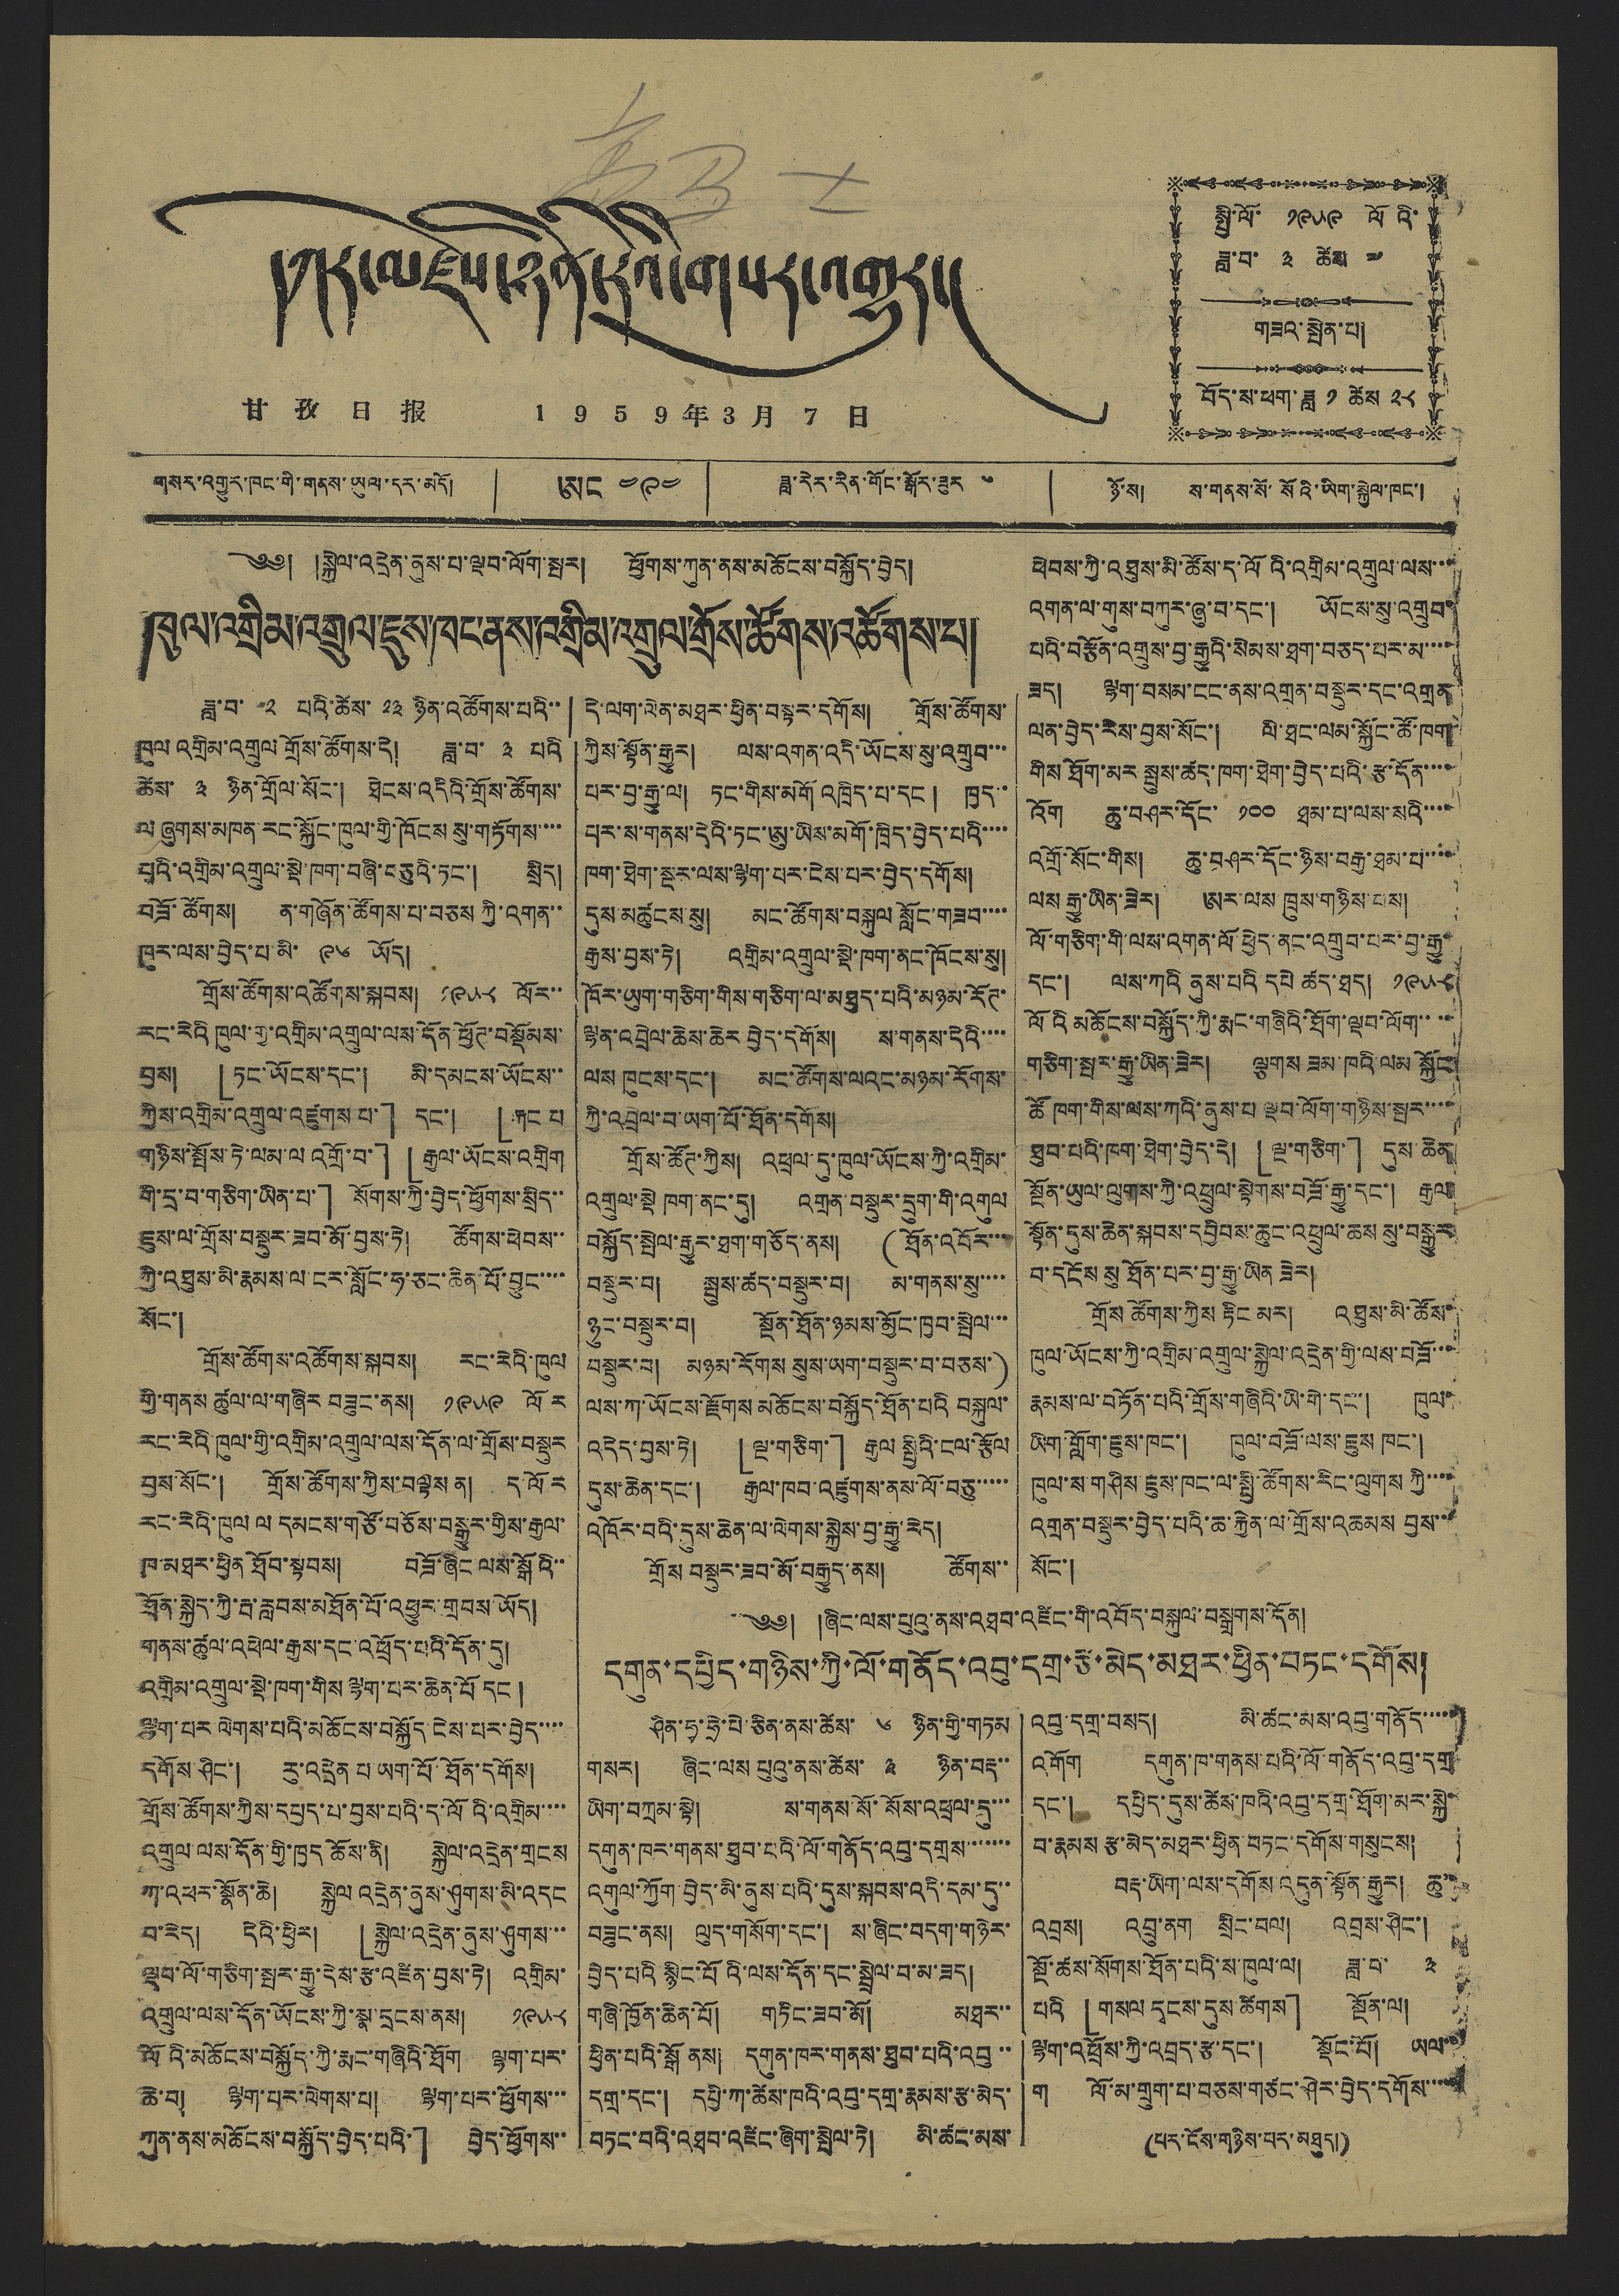དཀར་མཛེས་ཉིན་རེའི་གསར་འགྱུར།
甘 孜 日 报 1 9 5 9 年 3 月 7 日
སྤྱི་ལོ་ ༡༩༥༩ ལོའི་
ཟླ་བ་ ༣ ཚེས ༧
གཟའ་སྤེན་པ།
བོད་ས་ཕག་ཟླ ༡ ཚེས ༢༨
༄༅། །སྐྱེལ་འདྲེན་ནུས་པ་ལྡབ་ལོག་སྤར། ཕྱོགས་ཀུན་ནས་མཆོངས་བསྐྱོད་བྱེད།
ཁུལ་འགྲིམ་འགྲུལ་ཇུས་ཁང་ནས་འགྲིམ་འགྲུལ་གྲོས་ཚོགས་འཚོགས་པ།
ཟླ་བ་ ༢ པའི་ཚེས་ ༢༣ ཉིན་འཚོགས་པའི་་
ཁུལ་འགྲིམ་འགྲུལ་གྲོས་ཚོགས་དེ། ཟླ་བ་ ༣ པའི
ཚེས་ ༣ ཉིན་གྲོལ་སོང་། ཐེངས་འདིའི་གྲོས་ཚོགས་
ལ ཞུགས་མཁན་རང་སྐྱོང་ཁུལ་གྱི་ཁོངས་སུ་གཏོགས་་་་
པའི་འགྲིམ་འགྲུལ་སྡེ་ཁག་བཞི་བཅུའི་ཏང་། སྲིད།
བཟོ་ཚོགས། ན་གཞོན་ཚོགས་པ་བཅས་ཀྱི་འགན་་
ཁུར་ལས་བྱེད་པ་མི་ ༩༦ ཡོད།
གྲོས་ཚོགས་འཚོགས་སྐབས། ༡༩༥༨ ལོར་་
རང་རེའི ཁུལ་གྱ་འགྲིམ་འགྲུལ་ལས་དོན་ཕྱོཊ་བསྡོམས་
བྱས། 「ཏང་ཡོངས་དང་། མི་དམངས་ཡོངས་་
ཀྱིས་འགྲིམ་འགྲུལ་འཛུགས་པ་」དང་། 「རྐང་པ
གཉིས་སྤོས་ཏེ་ལམ་ལ་འགྲོ་བ་」「རྒྱལ་ཡོངས་འགྲིག
གི་དྲ་བ་གཅིག་ཡིན་པ་」སོགས་ཀྱི་བྱེད་ཕྱོགས་སྲིད་་
ཇུས་ལ་གྲོས་བསྡུར་ཟབ་མོ་བྱས་ཏེ། ཚོགས་ཕེབས་་
ཀྱི་འཐུས་མི་རྣམས་ལ་ངར་སློང་ཧ་ཅང་ཆེན་པོ་བྱུང་་་་
སོང་།
གྲོས་ཚོགས་འཚོགས་སྐབས། རང་རེའི་ཁུལ
གྱི་གནས ཚུལ་ལ་གཞིར བཟུང་ནས། ༡༩༥༩ ལོར
རང་རེའི་ཁུལ་གྱི་འགྲིམ་འགྲུལ་ལས་དོན་ལ་གྲོས་བསྡུར
བྱས་སོང་། གྲོས་ཚོགས་ཀྱིས་བལྟས ན། ད་ལོར
རང་རེའི་ཁུལ ལ དམངས་གཙོ་བཅོས་བསྒྱུར་གྱིས་རྒྱལ་
ཁ་མཐར་ཕྱིན ཐོབ་སྟབས། བཟོ་ཞིང ལས་སྒོའི་་
ཐོན་སྐྱེད་ཀྱི་རྦ་རླབས་མཐོན་པོ་འཕྱུར་གྲབས་ཡོད།
གནས་ཚུལ་འཕེལ་རྒྱས་དང་འཕྲོད་པའི་དོན་དུ།
འགྲིམ་འགྲུལ་སྡེ་ཁག་གིས་ལྷག་པར་ཆེན་པོ་དང་།
ལྷག་པར་ལེགས་པའི་མཆོངས་བསྐྱོད་ངེས་པར་བྱེད་་་་
དགོས་ཤིང་། རུ་འདྲེན པ ཡག་པོ་ཐོན་དགོས།
གྲོས་ཚོགས་ཀྱིས་དཔྱད་པ་བྱས་པའི་ད་ལོའི་འགྲིམ་་་་
འགྲུལ་ལས་དོན་གྱི་ཁྱད་ཆོས་ནི། སྐྱེལ་འདྲེན་གྲངས
ཀ་འཕར་སྣོན་ཆེ། སྐྱེལ་འདྲེན་ནུས་ཤུགས་མི་འདང
བ་རེད། དེའི་ཕྱིར། 「སྐྱེལ་འདྲེན་ནུས་ཤུགས་་་
ལྡབ་ལོ་གཅིག་སྤར་རྒྱུ་དེས་རྩ་འཛིན་བྱས་ཏེ། འགྲིམ་
འགྲུལ་ལས་དོན་ཡོངས་ཀྱི་སྣ་དྲངས་ནས། ༡༩༥༨
ལོའི་མཆོངས་བསྐྱོད་ཀྱི་རྨང་གཞིའི་ཐོག ལྷག་པར་
ཆེ་བ། ལྷག་པར་ལེགས་པ། ལྷག་པར་ཕྱོགས་་་
ཀུན་ནས་མཆོངས་བསྐྱོད་བྱེད་པའི་」 བྱེད་ཕྱོགས་་
དེ་ལག་ལེན་མཐར་ཕྱིན་བསྟར་དགོས། གྲོས་ཚོགས་
ཀྱིས་སྟོན་རྒྱུར། ལས་འགན་འདི་ཡོངས་སུ་འགྲུབ་་་
པར་བྱ་རྒྱུ་ལ། ཏང་གིས་མགོ་འཁྲིད་པ་དང་། ཁྱད་་
པར་ས་གནས་དེའི་ཏང་ཨུ་ཡིས་མགོ་ཁྲིད་བྱེད་པའི་་་་
ཁག་ཐེག་སྔར་ལས་ལྷག་པར་ངེས་པར་བྱེད་དགོས།
དུས་མཚུངས་སུ། མང་ཚོགས་བསྐུལ་སློང་གཟབ་་་་
རྒྱས་བྱས་ཏེ། འགྲིམ་འགྲུལ་སྡེ་ཁག་ནང་ཁོངས་སུ།
ཁོར་ཡུག་གཅིག་གིས་གཅིག་ལ་མཐུད་པའི་མཉམ་རོཊ་
ལྷན་འབྲེལ་ཆེས་ཆེར་བྱེད་དགོས། ས་གནས་དེའི་་་་
ལས་ཁུངས་དང་། མང་ཚོགས་ལའང་མཉམ་རོགས་
ཀྱི་འབྲེལ་བ་ཡག་པོ་ཐོན་དགོས།
གྲོས་ཚོཊ་ཀྱིས། འཕྲལ་དུ་ཁུལ་ཡོངས་ཀྱི་འགྲིམ་
འགྲུལ་སྡེ་ཁག་ནང་དུ། འགྲན་བསྡུར་དྲུག་གི་འགུལ
བསྐྱོད་སྤེལ་རྒྱུར་ཐག་གཅོད་ནས། (ཐོན་འབོར་་་
བསྡུར་བ། སྤུས་ཚད་བསྡུར་བ། མ་གནས་སུ་་་་
ཉུང་བསྡུར་བ། སྔོན་ཐོན་ཉམས་མྱོང་ཁྱབ་སྤེལ་་་
བསྡུར་བ། མཉམ་རོགས སུས་ཡག་བསྡུར་བ་བཅས་)
ལས་ཀ་ཡོངས་རྫོགས མཆོངས་བསྐྱོད་ཐོན་པའི བསྐུལ་
འདེད་བྱས་ཏེ། 「ལྔ་གཅིག་」རྒྱལ་སྤྱིའི་ངལ་རྩོལ
དུས་ཆེན་དང་། རྒྱལ་ཁབ་འཛུགས་ནས་ལོ་བཅུ་་་་་
འཁོར་བའི་དུས་ཆེན་ལ་ལེགས་སྐྱེས་བྱ་རྒྱུ་རེད།
གྲོས་བསྡུར་ཟབ་མོ་བརྒྱུད་ནས། ཚོགས་་
ཕེབས་ཀྱི་འཐུས་མི་ཚོས་ད་ལོའི་འགྲིམ་འགྲུལ་ལས་་་
འགན་ལ་གུས་བཀུར་ཞུ་བ་དང་། ཡོངས་སུ་འགྲུབ་
པའི་བརྩོན་འགྲུས་བྱ་རྒྱུའི་སེམས་ཐག་ཅད་པར་མ་་་་
ཟད། ལྷག་བསམ་ངང་ནས་འགྲན་བསྡུར་དང་འགྲན
ལན་བྱེད་རེས་བྱས་སོང་། ལི་ཐང་ལམ་སྐྱོང་ཚོ་ཁག
གིས ཐོག་མར སྤུས་ཚད་ཁག་ཐེག་བྱེད་པའི་རྩ་དོན་་་་
འོག ཆུ་བཤར་དོང་ ༡༠༠ ཐམ་པ་ལས་སའི་་་་
འགྲོ་སོང་གིས། ཆུ་བཤར་དོང་ཉིས་བརྒྱ་ཐམ་པ་་་་
ལས རྒྱུ་ཡིན་ཟེར། ཨར་ལས ཁྲུས་གཉིས་པས།
ལོ་གཅིག་གི་ལས་འགན་ལོ་ཕྱེད་ནང་འགྲུབ་པར་བྱ་རྒྱུ་
དང་། ལས་ཀའི ནུས་པའི དཔེ ཚད་ཐད། ༡༩༥༨
ལོའི་མཆོངས་བསྐྱོད་ཀྱི་རྨང་གཞིའི་ཐོག་ལྡབ་ལོག་་་་
གཅིག་སྤར་རྒྱུ་ཡིན་ཟེར། ལྕགས ཟམ་ཁའི་ལམ སྐྱོང
ཚོ་ཁག་གིས་ལས་ཀའི་ནུས་པ ལྡབ་ལོག་གཉིས་སྤར་་་་
ཐུབ་པའི་ཁག་ཐེག་བྱེད་དེ། 「ལྔ་གཅིག་」དུས་ཆེན
སྔོན་ཡུལ་ལུགས་ཀྱི་འཕྲུལ་སྟེགས་བཟོ་རྒྱུ་དང་། རྒྱལ
སྟོན་དུས་ཆེན་སྐབས་དབྱིབས་ཆུང་འཕྲུལ་ཆས སུ་བསྒྱུར
བ་དངོས་སུ ཐོན་པར་བྱ་རྒྱུ་ཡིན་ཟེར།
གྲོས ཚོགས་ཀྱིས རྟིང མར། འཐུས་མི་ཚོས་
ཁུལ་ཡོངས་ཀྱི་འགྲིམ་འགྲུལ་སྐྱེལ་འདྲེན་གྱི་ལས་བཟོ་་་
རྣམས་ལ་བཏོན་པའི་གྲོས་གཞིའི་ཡི་གེ་དང་། ཁུལ་
ཡིག་གློག་ཇུས་ཁང་། ཁུལ་བཟོ་ལས་ཇུས ཁང་།
ཁུལ་ས་གཤིས་ཇུས་ཁང་ལ་སྤྱི་ཚོགས་རིང་ལུགས་ཀྱི་་་་
འགྲན་བསྡུར་བྱེད་པའི་ཆ་རྐྱེན་ལ་གྲོས་འཆམས བྱས་་་
སོང་།
༄༅། །ཞིང་ལས་པུའུ་ནས་འཐབ་འཛིང་གི་འབོད་བསྐུལ་བསྒྲགས་དོན།
དགུན་དཔྱིད་གཉིས་ཀྱི་ལོ་གནོད་འབུ་དགྲ་རྩ་མེད་མཐར་ཕྱིན་བཏང་དགོས།
ཤིན་ཧྭ་ཧྲེ་པེ་ཅིན་ནས་ཚེས་ ༦ ཉིན་གྱི་གཏམ
གསར། ཞིང་ལས པུའུ་ནས་ཚེས་ ༣ ཉིན་བརྡ་་
ཡིག་བཀྲམ་སྟེ། ས་གནས་སོ་སོས་འཕྲལ་དུ་་་
དགུན་ཁར་གནས་ཐུབ་པའི་ལོ་གནོད་འབུ་དགྲས་་་་་་་
འགུལ་ཀྱོག་བྱེད་མི་ནུས་པའི་དུས་སྐབས་འདི་དམ་དུ་་
བཟུང་ནས། ལུད་གསོག་དང་། ས་ཞིང་བདག་གཉེར་
བྱེད་པའི སྙིང་པོའི་ལས་དོན་དང་སྤྲེལ་བ་མ་ཟད།
གཞི་ཁྱོན་ཆེན་པོ། གཏིང་ཟབ་མོ། མཐར་་
ཕྱིན་པའི་སྒོ ནས། དགུན་ཁར་གནས་ཐུབ་པའི་འབུ་་
དགྲ་དང་། དཔྱི་ཀ་ཚེས་ཁའི་འབུ་དགྲ་རྣམས་རྩ་མེད་
བཏང་བའི་འཐབ་འཛིང་ཞིག་སྤེལ་ཏེ། མི་ཚང་མས་
འབུ་དགྲ་བསད། མི་ཚང་མས་འབུ་གནོད་་་་་
འགོག དགུན་ཁག་གནས་པའི་ལོ་གནོད་འབུ་དགྲ་
དང་། དཔྱིད་དུས་ཚེས་ཁའི་འབུ་དགྲ་ཐོག་མར་སྐྱེ་
བ་རྣམས རྩ་མེད་མཐར་ཕྱིན་བཏང་དགོས་གསུངས།
བརྡ་ཡིག་ལས་དགོས་འདུན་སྟོན་རྒྱུར། ཆུ་
འབྲས། འབྲུ་ནག སྲིང་བལ། འབྲས་ཤིང་།
སྔོ་ཚས་སོགས་ཐོན་པའི་ས་ཁུལ་ལ། ཟླ་བ་ ༣
པའི་ 「གསལ དྭངས་དུས་ཚིགས」 སྔོན་ལ།
ལྷག་འཕྲོས་ཀྱི་འབྲད་རྩ་དང་། སྡོང་པོ། ཡལ་་
ག ལོ་མ་གྲུག་པ་བཅས་གཙང་ཤེར་བྱེད་དགོས་་་་་
(པར་ངོས་གཉིས་པར་མཐུད།)
